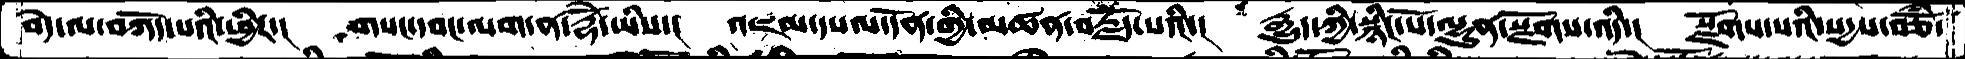བདེ་ལ་བཀོད་པའི་ཕྱིར་།  གསང་དབང་ལག་ན་རྡོ་ེ་ཡིས་།  འཇམ་དཔལ་དོན་གྱི་མཚན་བརྗོད་པའི་།  རྒྱུད་ཀྱི་སྙིང་པོ་ལྷུན་སྫོགས་འདི་།  སྫོགས་པའི་སདྱས་བཅོཾ་
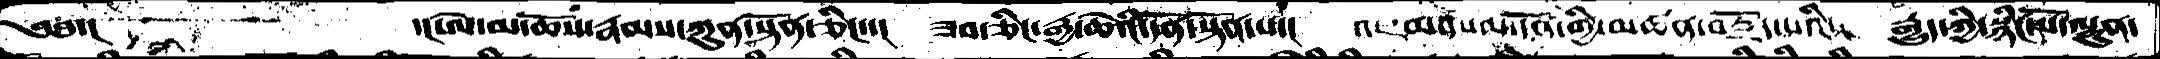༄༅་།             ་།ཨེ་མ་ཆོས་རྣམས་ཀུན་སྟོན་ཅིང་་།   ཟབ་ཅིང་རྒྱ་ཆེའི་དོན་སྟོན་པ་།   འཇམ་དཔལ་དོན་གྱི་མཚན་བརྗོད་པའི་།  རྒྱུད་ཀྱི་སྙིང་པོ་ལྷུན
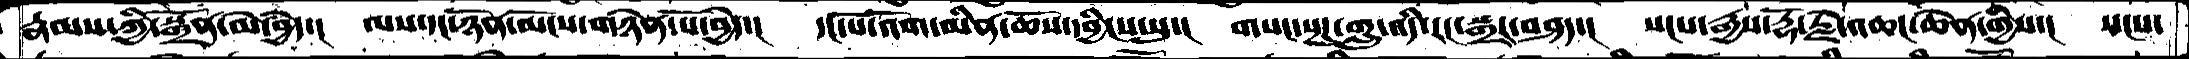རྣམས་ཀྱི་སྒྲོན་མེ་བྱེད་།  ལས་དང་ཉོན་མོངས་གཉེན་པོ་བྱེད་།   དང་པོ་འོག་མིན་ཆོས་དབྱིངས་སུ་།  གསང་སྔཌ་གླུ་འདི་རང་སྒྲར་བཤད་།   སངས་རྒྱས་རྡོ་རྗེ་འཆང་ཆེན་གྱིས་།   སངས་
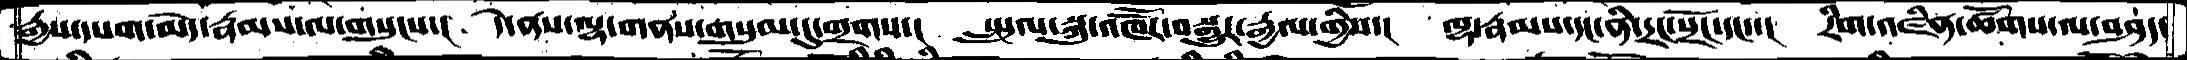རྒྱས་དཔག་མེད་རྣམས་ལ་གསུངས་།   དེ་ནས་ལྷ་གནས་གསུམ་དུ་གྲགས་།  སྤྲུལ་སྐུ་འཁཽར་བསྒྱུར་རྒྱལ་གྱིས་།  ལྷ་རྣམས་དང་ནི་དྲང་སྲོང་དང་།  རིག་འཛིན་ཚོགས་ལ་བཤད་
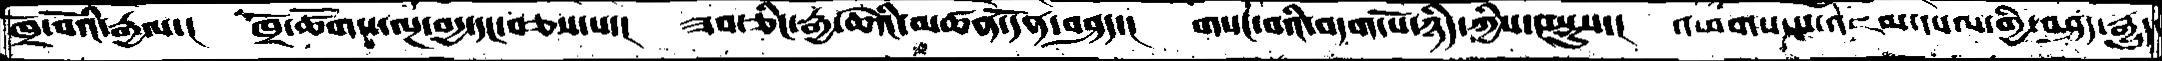ཁྲོ་བའི་རྒྱལ་།  ཁྲོ་ཚོགས་ལྔ་བདྱ་དང་བཅས་པ་།   ཟབ་ཅིང་རྒྱ་ཆེའི་མཚན་དོན་བཤད་།   གསང་བའི་བདག་པོ་ཉིད་ཀྱིས་བསྡུས་།  འཕགས་པ་འཇམ་དཔལ་གྱི་བཤད་རྒྱུད་
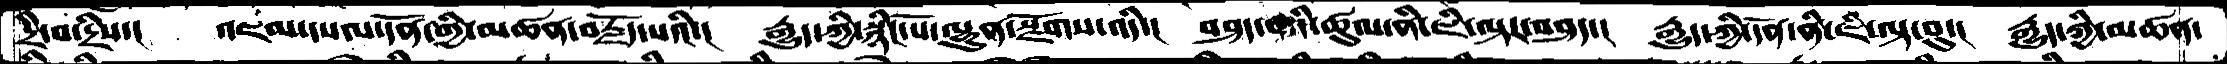དྲི་བ་དྲིས་།   འཇམ་དཔལ་དོན་གྱི་མཚན་བརྗོད་པའི་།  རྒྱུད་ཀྱི་སྙིང་པོ་ལྷུན་སྫོགས་འདི་།  བཤད་པའི་ཚུལ་ནི་ཇི་ལྟར་བཤད་།  རྒྱུད་ཀྱི་དོན་ནི་ཇི་ལྟ་བུ་།  རྒྱུད་ཀྱི་མཚན་
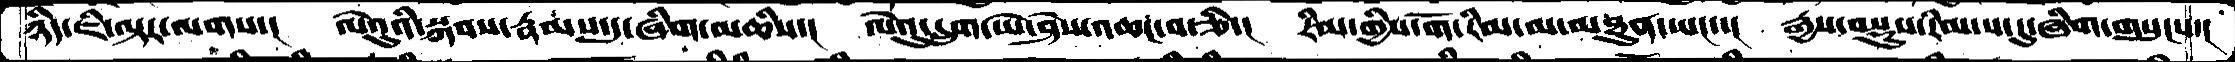ཉིད་ཇི་ལྟར་ལགས་།  ལེའུའི་སྐབས་རྣམས་དུ་ཞིག་མཆིས་།   ལེའུ་དྲུག་ཡེ་ཤེས་འཆང་བ་ཅི་།  རིམ་གྱིས་གོ་རིམ་མ་མཐུན་ཡང་།  རྒྱས་བསྡུས་རིམ་པ་དུ་ཞིག་གསུངས་།
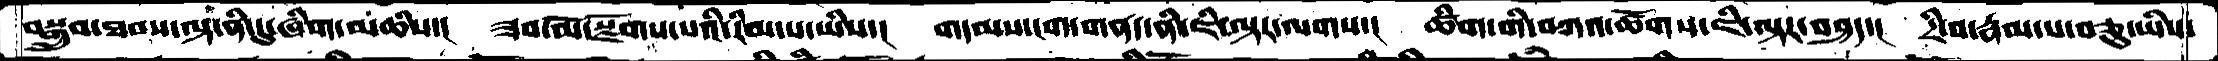བསྒྲུབ་ཐབས་ལྟ་ནི་དུ་ཞིག་མཆིས་།   ཟབ་མོ་སྫོགས་པའི་རིམ་པ་ཡིས་།  གདམས་ངག་གནད་ནི་ཇི་ལྟར་ལགས་།  ཚིག་གི་བཀའ་ཚོགས་ཇི་ལྟར་བཤད་།  དྲི་བ་རྣམ་པ་བཅུ་ཡིས་
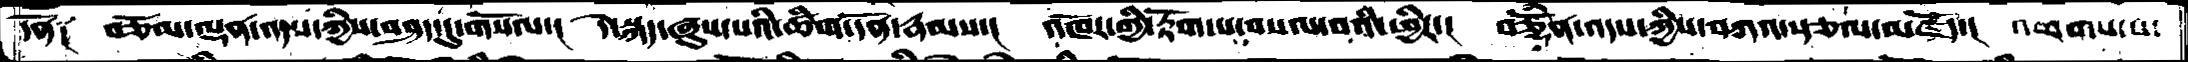དོན༑   བཅོམ་ལྡན་འདས་ཀྱིས་བཤད་དུ་གསོལ་།  དེ་སྐད་ཞུས་པའི་ཚིག་དོན་རྣམས་།  འཁོར་གྱི་རྟོག་པ་བསལ་བའི་ཕྱིར་།  བཅྡོཾན་འདས་ཀྱིས་བཀའ་སྩལ་མཛོད་།  འཕགས་པ་
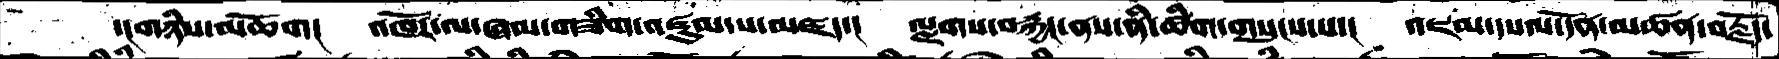་།གཉིས་མཆོག།  འཁོར་ལ་ཞལ་གཟིག་འཛུམ་པ་མཛད་།  ལྗགས་བརྐྱང་ནས་ནི་ཚིག་གསུངས་པ་།  འཇམ་དཔལ་དོན་མཚན་བརྗོད་
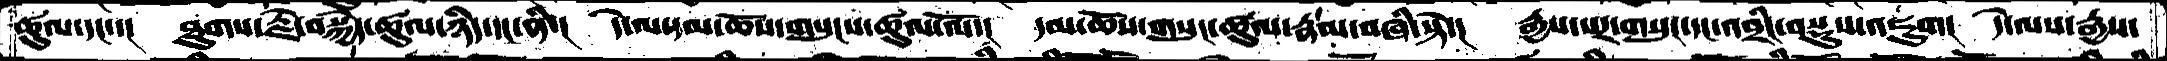ཚུལ་དང་།  ཐུགས་རྗེ་བསྐྱེད་ཚུལ་ཉིད་དང་ནི་།  དེ་ལ་དམ་ཆོས་གསུངས་ཚུལ་ལོ་།  དམ་ཆོས་གསུང་ཚུལ་རྣམ་བཞི་སྟེ་།  རྒྱས་པར་གསུང་དང་འབྲིང་བསྡུས་འཇུག།  དེ་ལས་རྒྱས་
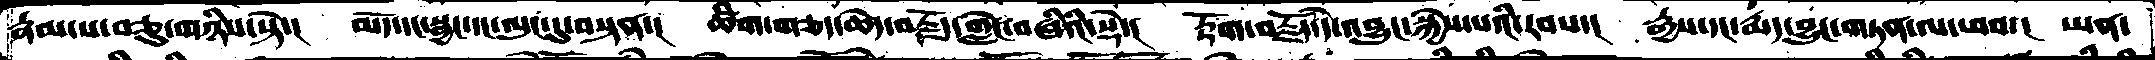རྣམ་པ་བཅུ་གཉིས་སྟེ་།  མདོ་དང་སྦྱང་དང་ལུང་དུ་བསྟན་།  ཚིག་གཅད་ཆེད་བརྗོད་གླེང་བཞིའི་སྡེ་།  རྟོག་བརྗོད་དེ་འབྱུང་སྐྱེས་པའི་རབས་།  རྒྱས་དང་རྨད་བྱུང་གཏན་ལ་ཕབ་།  ཡན་
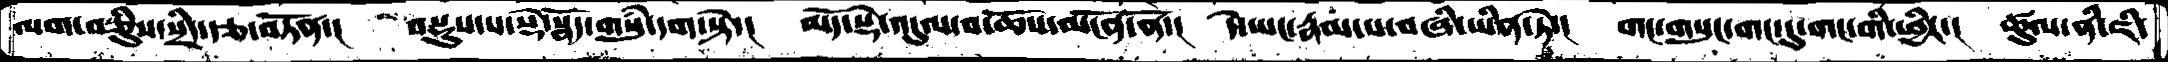ལག་བཅིུས་སྲིད་རྩ་བཏོན་།  བསྡུས་པ་སྡེ་སྣོད་གསུཾ་དག་སྟེ་།  མདོ་སྡེ་འདུལ་བ་ཆོས་མངོན་ནོ་།  དེ་ཡང་རྣམ་པ་བཞི་ཡིན་ཏེ་།  གང་གསུང་གང་དུ་གང་གི་ཕྱིར་།  ཚུལ་ནི་ཇི་
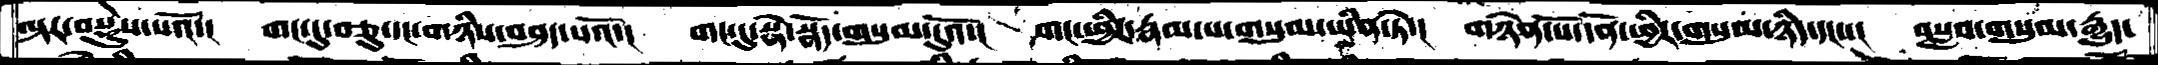ལྟར་བསྡུས་པའོ་།  གང་དུ་བཅུ་དང་གཉིས་བཤད་པའོ་།  གང་དུ་སྡེ་སྣོད་གསུམ་དུའོ་།  གང་ཕྱིར་རྣམ་པ་གསུམ་ཡིན་ཏེ་།  གཉེན་པོ་དོན་ཕྱིར་གསུམ་ཉིད་དང་་།  བསླབ་གསུམ་རྒྱུད་
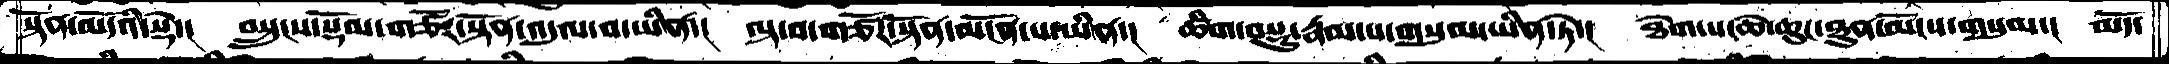སྟོན་མདོའི་སྡེ་།  བསྲུངས་སྡོམ་གཙོར་སྟོན་འདུལ་བ་ཡིན་།  ལྟ་བ་གཙོར་སྟོན་མངོན་པ་ཡིན་།  ཚིག་བསྡུ་རྣམ་པ་གསུམ་ཡིན་ཏེ་།  ཐེག་པ་ཆེ་ཆུང་ཐུན་མོངས་གསུམ་།  མདོ་
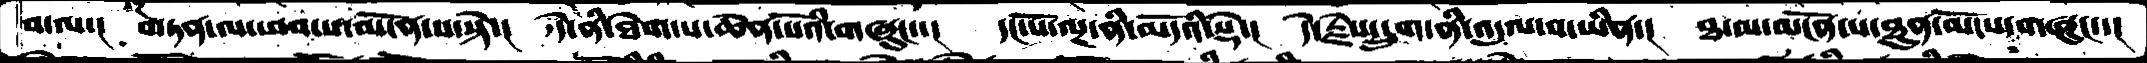བ་ལ་།  གཏན་ལ་ཕབ་པ་མངོན་པ་སྟེ་།  དེ་ནི་ཐེག་པ་ཆེན་པོའི་གཞུང་་།   དང་པོ་ལྔ་ནི་མདོའི་སྡེ་།  དེ་རྗེས་དྲུག་ནི་འདུལ་བ་ཡིན་།  ཐ་མ་མངོན་པ་ཐུན་མོངས་གཞུང་་།
